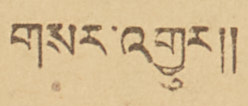གསར་འགྱུར།།
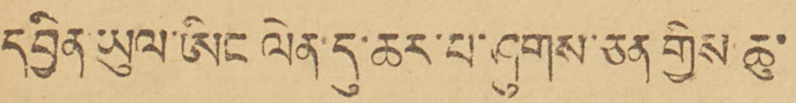དབྱིན་ཡུལ་ཨིང ལེན་དུ་ཆར་པ་ཤུགས་ཅན གྱིས ཆུ་
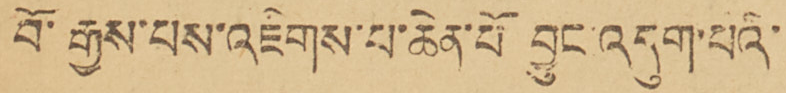བོ་རྒྱས་པས་འཇིགས་པ་ཆེན་པོ བྱུང་འདུག་པའི་
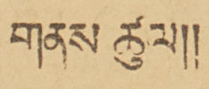གནས ཚུལ།།
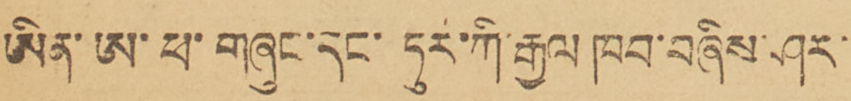ཡིན་ཨ་ཕ་གཞུང་དང་ཏུར་ཀི་རྒྱལ ཁབ་བཞིས་ཤར
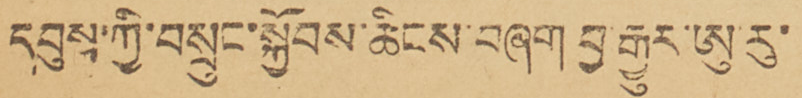དབུས་ཀྱི་བསྲུང་སྐྱོབས་ཆིངས་བཞག བྱ་རྒྱུར་ཨུ་རུ་
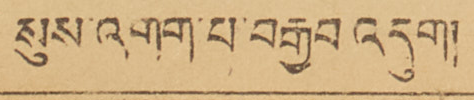སུས་འགག་པ་བརྒྱབ འདུག།།
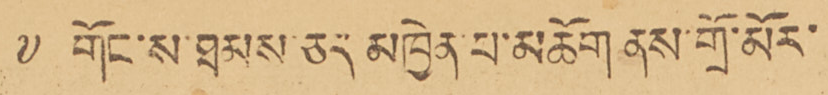༸ གོང་ས་ཐམས་ཅད མཁྱེན་པ་མཆོག ནས་གྲོ་མོར་
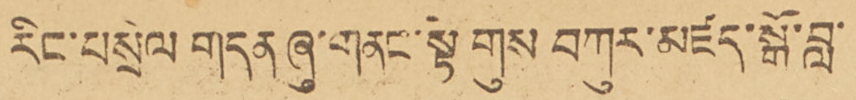རིང་བསྲེལ གདན ཞུ་གནང་སྟེ གུས བཀུར་མཛད་སྒོ་བླ་
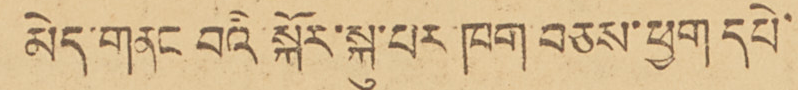མེད་གནང བའི་སྐོར་སྐུ་པར་ཁག་བཅས་ཕྱག དཔེ་
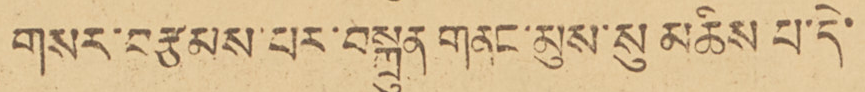གསར་བརྩམས་པར་བསྐྲུན གནང་མུས་སུ མཆིས པ་དེ་
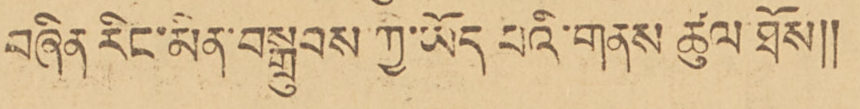བཞིན རིང་མིན་བསྒྲུབས་ཀྱི་ཡོད པའི་གནས ཚུལ་ཐོས།།
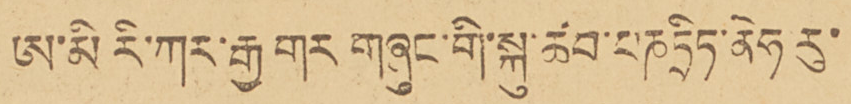ཨ་མི རི་ཀར་རྒྱ་གར གཞུང་གི་སྐུ་ཚབ་པཎཏྲིཏ་ནེཧརུ་
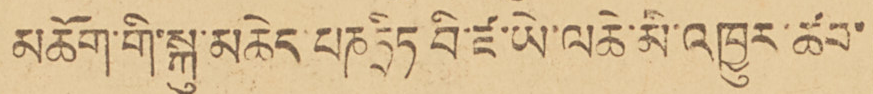མཆོག་གི་སྐུ་མཆེད་པཎཏྲིཏ བི་ཛ་ཡེ་ལཆེ་མི་འཁྱུར་ཚབ་
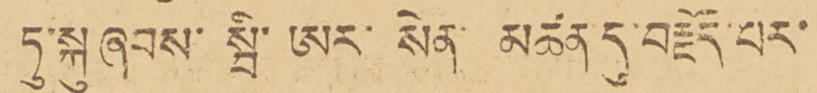ཏུ་སྐུ་ཞབས་སྦི་ཨར་སེན་ མཚན་དུ་བརྗོད་པར་
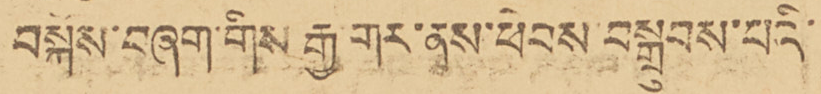བསྐོས་བཞག་གིས རྒྱ་གར་ནས་ཕེབས་བསྒྲུབས་པའི་
